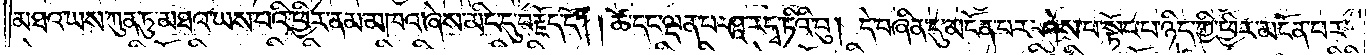མཐའ་ཡས་ཀུན་ཏུ་མཐའ་ཡས་པའི་ཕྱིར་ནམ་མཁའ་ཞེས་མིང་དུ་བརྗོད་དོ། །ཚེ་དང་ལྡན་པ་ཤཱ་ར་དྭ་ཏིའི་བུ། དེ་བཞིན་དུ་མངོན་པར་ཤེས་པ་སྟོང་པ་ཉིད་ཀྱི་ཕྱིར་མངོན་པར་
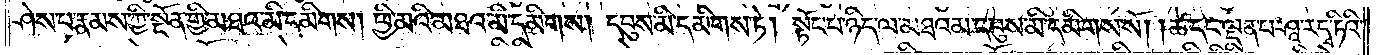ཤེས་པ་རྣམས་ཀྱི་སྔོན་གྱི་མཐའ་མི་དམིགས། ཕྱི་མའི་མཐའ་མི་དམིགས། དབུས་མི་དམིགས་ཏེ། སྟོང་པ་ཉིད་ལ་མཐའམ་དབུས་མི་དམིགས་སོ། །ཚེ་དང་ལྡན་པ་ཤཱ་ར་དྭ་ཏིའི་
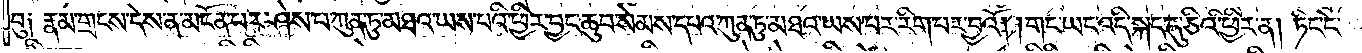བུ། རྣམ་གྲངས་དེས་ན་མངོན་པར་ཤེས་པ་ཀུན་ཏུ་མཐའ་ཡས་པའི་ཕྱིར་བྱང་ཆུབ་སེམས་དཔའ་ཀུན་ཏུ་མཐའ་ཡས་པར་རིག་པར་བྱའོ། །གང་ཡང་འདི་སྐད་དུ་ཅིའི་ཕྱིར་ན། ཏིང་ངེ་
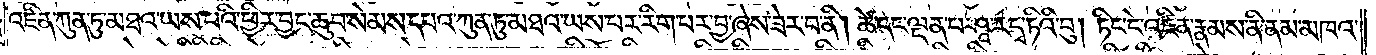འཛིན་ཀུན་ཏུ་མཐའ་ཡས་པའི་ཕྱིར་བྱང་ཆུབ་སེམས་དཔའ་ཀུན་ཏུ་མཐའ་ཡས་པར་རིག་པར་བྱ་ཞེས་ཟེར་བ་ནི། ཚེ་དང་ལྡན་པ་ཤཱ་ར་དྭ་ཏིའི་བུ། ཏིང་ངེ་འཛིན་རྣམས་ནི་ནམ་མཁའ་
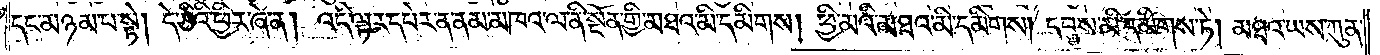དང་མཉམ་པ་སྟེ། དེ་ཅིའི་ཕྱིར་ཞེ་ན། འདི་ལྟར་དཔེར་ན་ནམ་མཁའ་ལ་ནི་སྔོན་གྱི་མཐའ་མི་དམིགས། ཕྱི་མའི་མཐའ་མི་དམིགས། དབུས་མི་དམིགས་ཏེ། མཐའ་ཡས་ཀུན་
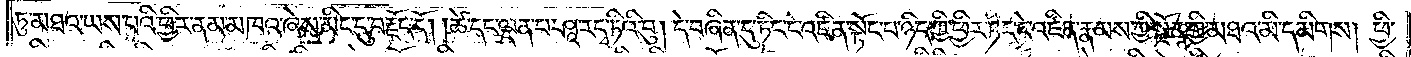ཏུ་མཐའ་ཡས་པའི་ཕྱིར་ནམ་མཁའ་ཞེས་མིང་དུ་བརྗོད་དོ། །ཚེ་དང་ལྡན་པ་ཤཱ་ར་དྭ་ཏིའི་བུ། དེ་བཞིན་དུ་ཏིང་ངེ་འཛིན་སྟོང་པ་ཉིད་ཀྱི་ཕྱིར་ཏིང་ངེ་འཛིན་རྣམས་ཀྱི་སྔོན་གྱི་མཐའ་མི་དམིགས། ཕྱི་
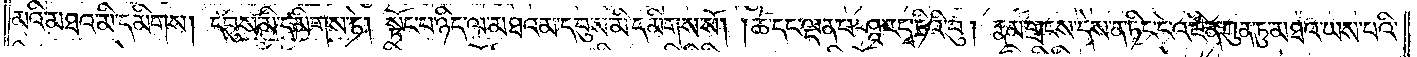མའི་མཐའ་མི་དམིགས། དབུས་མི་དམིགས་ཏེ། སྟོང་པ་ཉིད་ལ་མཐའམ་དབུས་མི་དམིགས་སོ། །ཚེ་དང་ལྡན་པ་ཤཱ་ར་དྭ་ཏིའི་བུ། རྣམ་གྲངས་དེས་ན་ཏིང་ངེ་འཛིན་ཀུན་ཏུ་མཐའ་ཡས་པའི་
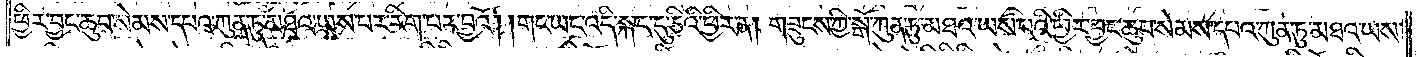ཕྱིར་བྱང་ཆུབ་སེམས་དཔའ་ཀུན་ཏུ་མཐའ་ཡས་པར་རིག་པར་བྱའོ། །གང་ཡང་འདི་སྐད་དུ་ཅིའི་ཕྱིར་ན། གཟུངས་ཀྱི་སྒོ་ཀུན་ཏུ་མཐའ་ཡས་པའི་ཕྱིར་བྱང་ཆུབ་སེམས་དཔའ་ཀུན་ཏུ་མཐའ་ཡས་
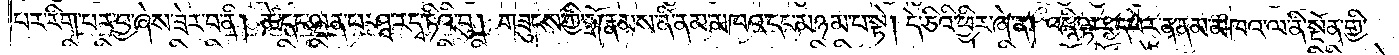པར་རིག་པར་བྱ་ཞེས་ཟེར་བ་ནི། ཚེ་དང་ལྡན་པ་ཤཱ་ར་དྭ་ཏིའི་བུ། གཟུངས་ཀྱི་སྒོ་རྣམས་ནི་ནམ་མཁའ་དང་མཉམ་པ་སྟེ། དེ་ཅིའི་ཕྱིར་ཞེ་ན། འདི་ལྟར་དཔེར་ན་ནམ་མཁའ་ལ་ནི་སྔོན་གྱི་
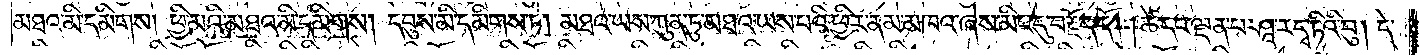མཐའ་མི་དམིགས། ཕྱི་མའི་མཐའ་མི་དམིགས། དབུས་མི་དམིགས་ཏེ། མཐའ་ཡས་ཀུན་ཏུ་མཐའ་ཡས་པའི་ཕྱིར་ནམ་མཁའ་ཞེས་མིང་དུ་བརྗོད་དོ། །ཚེ་དང་ལྡན་པ་ཤཱ་ར་དྭ་ཏིའི་བུ། དེ་
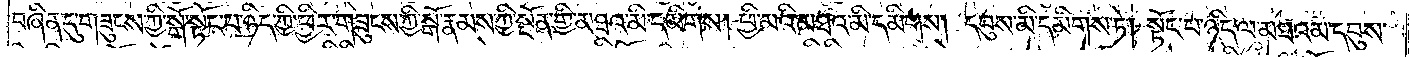བཞིན་དུ་གཟུངས་ཀྱི་སྒོ་སྟོང་པ་ཉིད་ཀྱི་ཕྱིར་གཟུངས་ཀྱི་སྒོ་རྣམས་ཀྱི་སྔོན་གྱི་མཐའ་མི་དམིགས། ཕྱི་མའི་མཐའ་མི་དམིགས། དབུས་མི་དམིགས་ཏེ། སྟོང་པ་ཉིད་ལ་མཐའམ་དབུས་
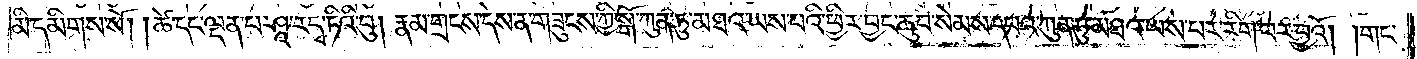མི་དམིགས་སོ། །ཚེ་དང་ལྡན་པ་ཤཱ་ར་དྭ་ཏིའི་བུ། རྣམ་གྲངས་དེས་ན་གཟུངས་ཀྱི་སྒོ་ཀུན་ཏུ་མཐའ་ཡས་པའི་ཕྱིར་བྱང་ཆུབ་སེམས་དཔའ་ཀུན་ཏུ་མཐའ་ཡས་པར་རིག་པར་བྱའོ། །གང་
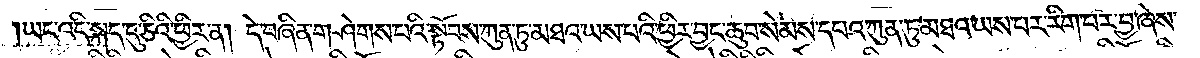ཡང་འདི་སྐད་དུ་ཅིའི་ཕྱིར་ན། དེ་བཞིན་གཤེགས་པའི་སྟོབས་ཀུན་ཏུ་མཐའ་ཡས་པའི་ཕྱིར་བྱང་ཆུབ་སེམས་དཔའ་ཀུན་ཏུ་མཐའ་ཡས་པར་རིག་པར་བྱ་ཞེས་
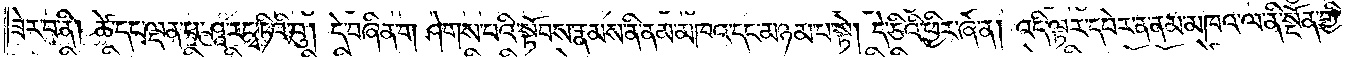ཟེར་བ་ནི། ཚེ་དང་ལྡན་པ་ཤཱ་ར་དྭ་ཏིའི་བུ། དེ་བཞིན་གཤེགས་པའི་སྟོབས་རྣམས་ནི་ནམ་མཁའ་དང་མཉམ་པ་སྟེ། དེ་ཅིའི་ཕྱིར་ཞེ་ན། འདི་ལྟར་དཔེར་ན་ནམ་མཁའ་ལ་ནི་སྔོན་གྱི་
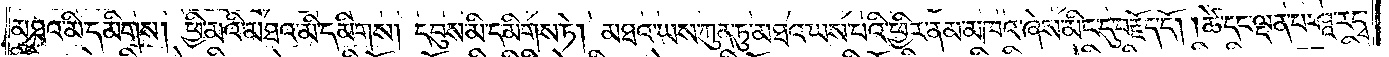མཐའ་མི་དམིགས། ཕྱི་མའི་མཐའ་མི་དམིགས། དབུས་མི་དམིགས་ཏེ། མཐའ་ཡས་ཀུན་ཏུ་མཐའ་ཡས་པའི་ཕྱིར། ནམ་མཁའ་ཞེས་མིང་དུ་བརྗོད་དོ། །ཚེ་དང་ལྡན་པ་ཤཱ་ར་དྭ་
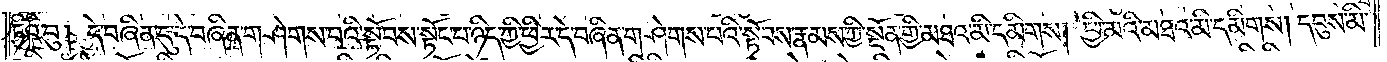ཏིའི་བུ། དེ་བཞིན་དུ་དེ་བཞིན་གཤེགས་པའི་སྟོབས་སྟོང་པ་ཉིད་ཀྱི་ཕྱིར་དེ་བཞིན་གཤེགས་པའི་སྟོབས་རྣམས་ཀྱི་སྔོན་གྱི་མཐའ་མི་དམིགས། ཕྱི་མའི་མཐའ་མི་དམིགས། དབུས་མི་
